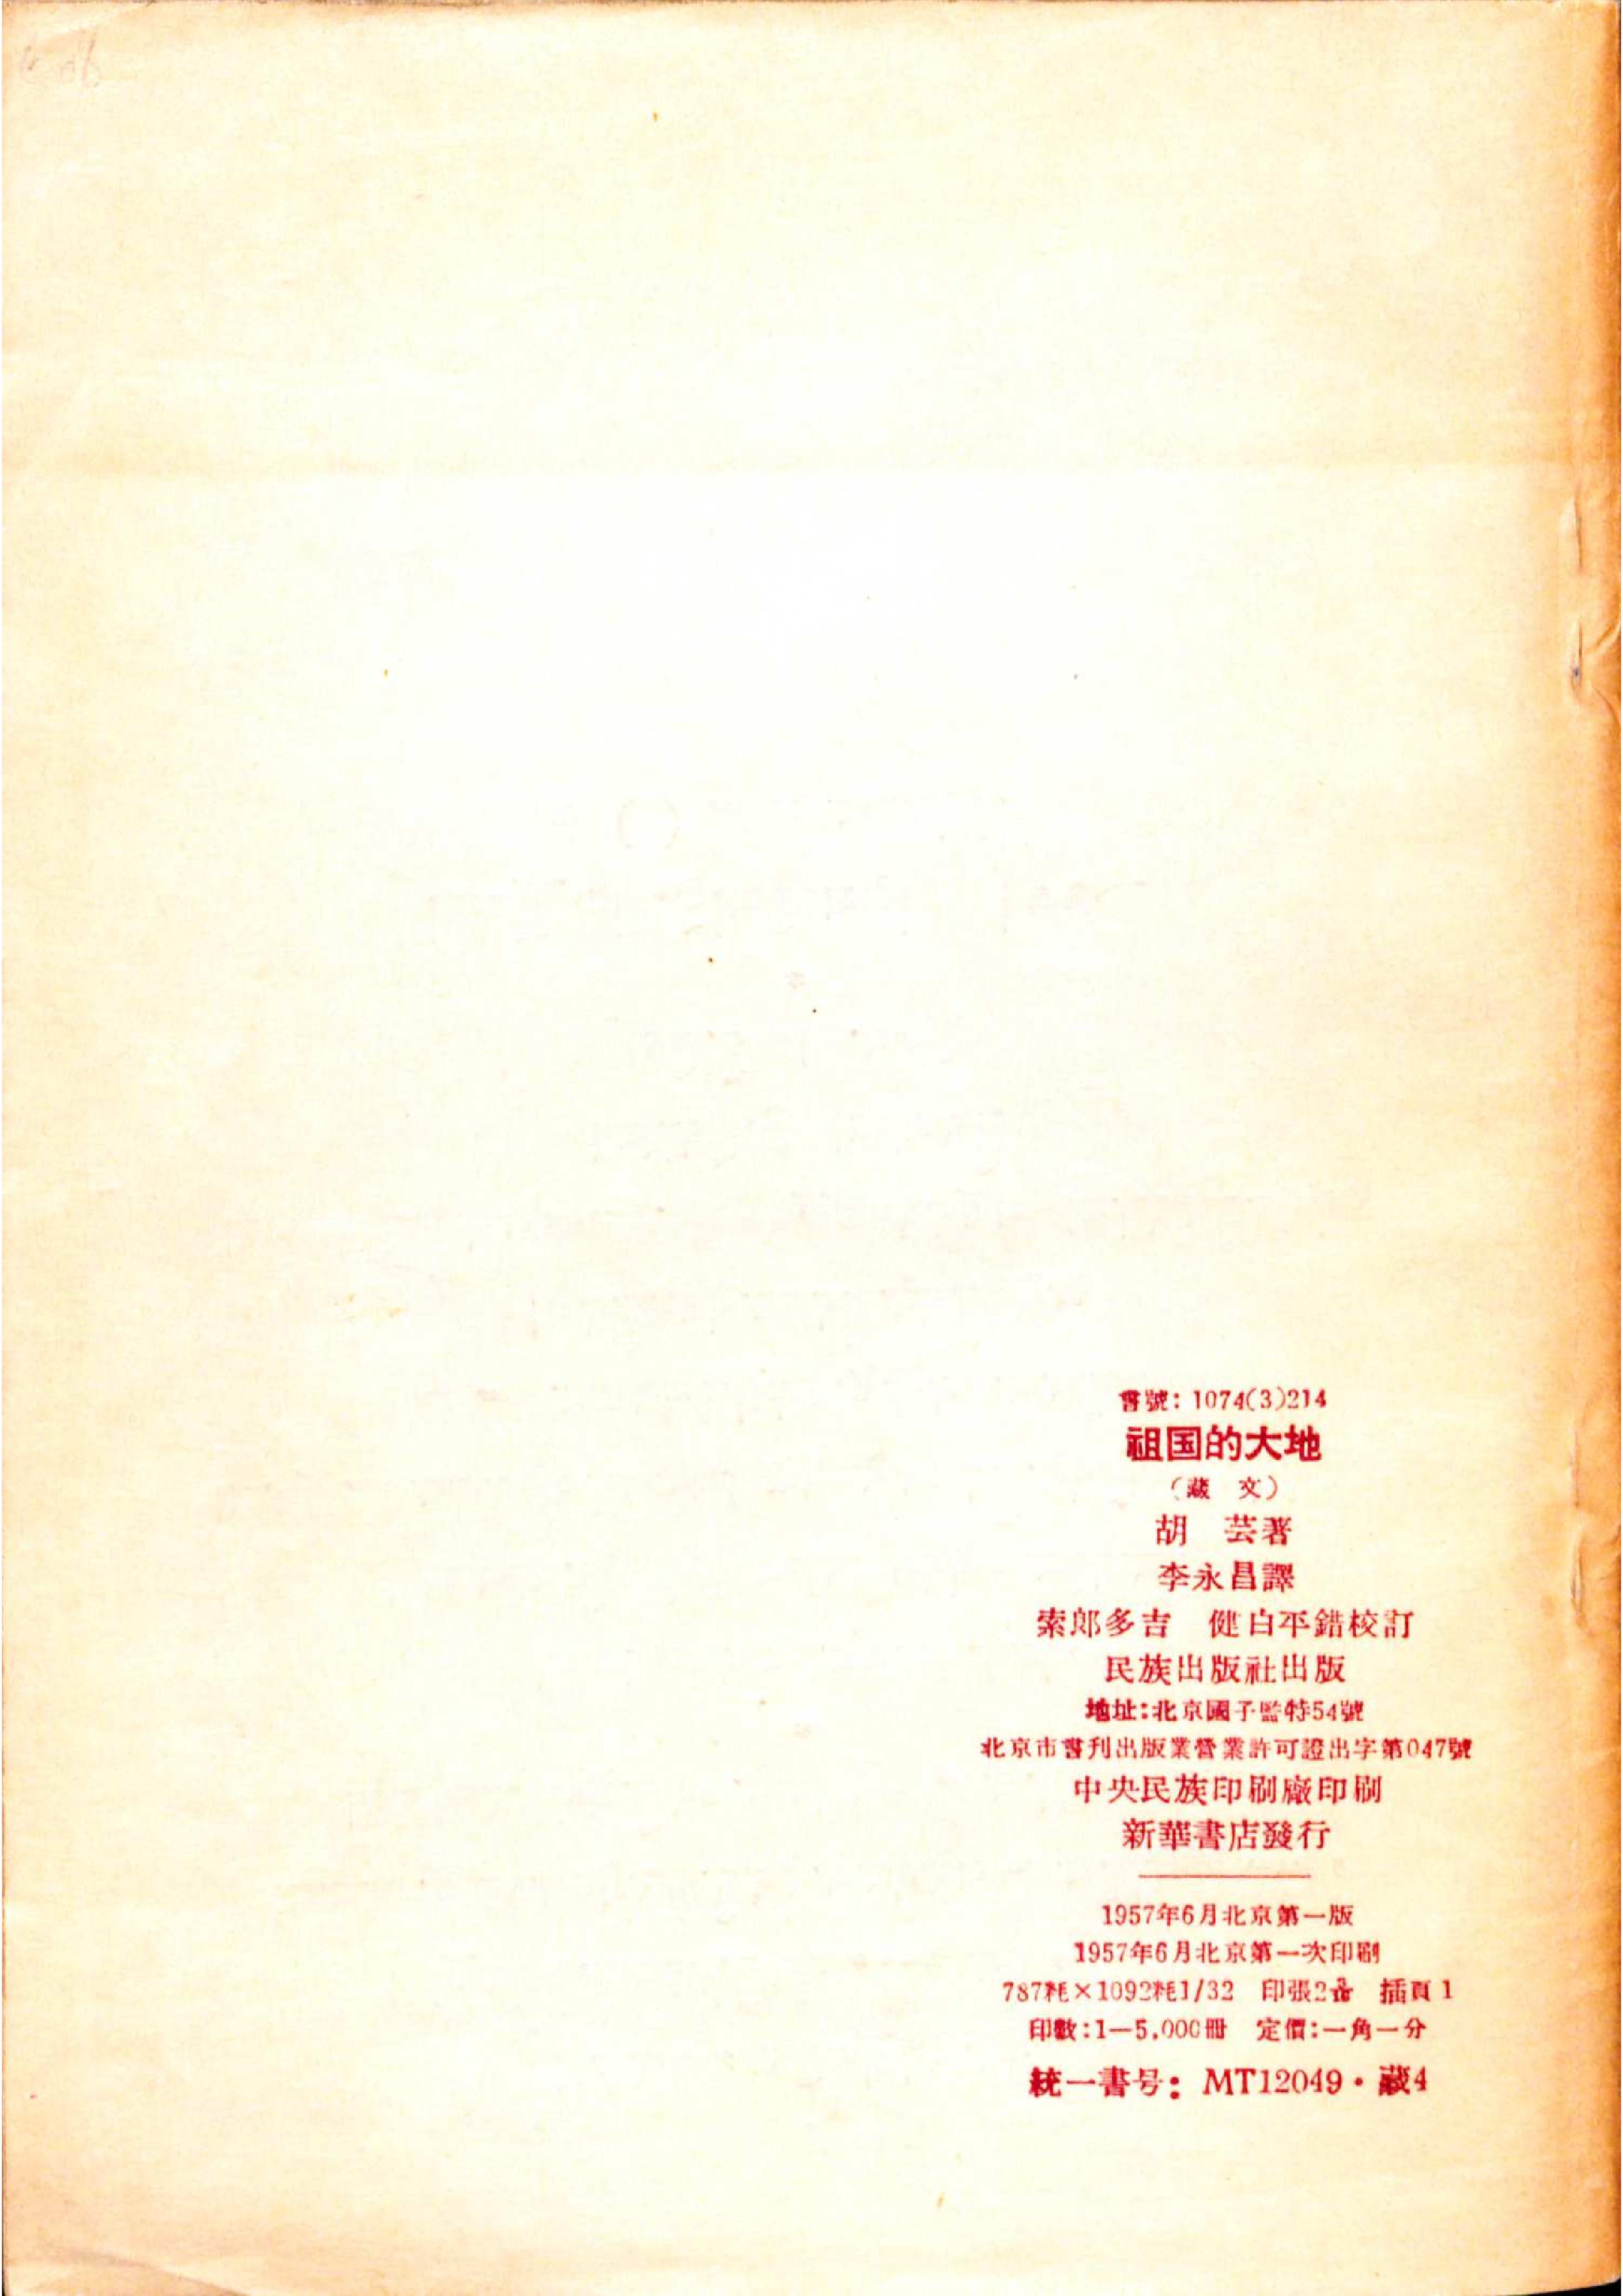書號：1074(3)214
祖国的大地
（藏 文）
胡 芸著
李永昌譯
索郎多吉 健白平錯校訂
民族出版社出版
地址：北京國子監特54號
北京市書刊出版業營業許可證出字第047號
中央民族印刷廠印刷
新華書店發行
1957年6月北京第一版
1957年6月北京第一次印刷
787耗×1092耗1/32 印張23/16 插頁1
印數：1-5,000冊 定價：一角一分
統一書號：MT12049・藏4
